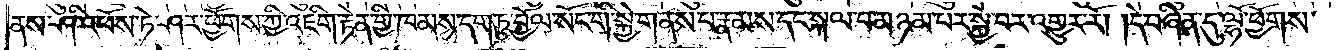ནས་ཤི་འཕོས་ཏེ་ཤར་ཕྱོགས་ཀྱི་འཇིག་རྟེན་གྱི་ཁམས་དག་ཏུ་བྱོལ་སོང་གི་སྐྱེ་གནས་པ་རྣམས་དང་སྐལ་བ་མཉམ་པར་སྐྱེ་བར་འགྱུར་རོ། །དེ་བཞིན་དུ་ལྷོ་ཕྱོགས་
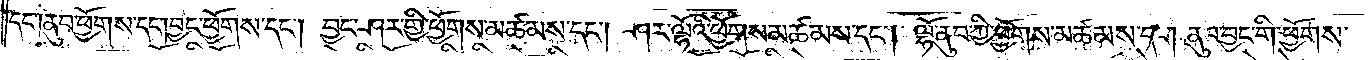དང༌། ནུབ་ཕྱོགས་དང་བྱང་ཕྱོགས་དང༌། བྱང་ཤར་གྱི་ཕྱོགས་མཚམས་དང༌། ཤར་ལྷོའི་ཕྱོགས་མཚམས་དང༌། ལྷོ་ནུབ་ཀྱི་ཕྱོགས་མཚམས་དང༌། ནུབ་བྱང་གི་ཕྱོགས་
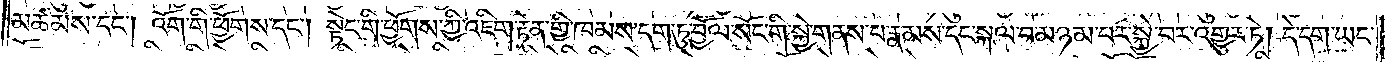མཚམས་དང༌། འོག་གི་ཕྱོགས་དང༌། སྟེང་གི་ཕྱོགས་ཀྱི་འཇིག་རྟེན་གྱི་ཁམས་དག་ཏུ་བྱོལ་སོང་གི་སྐྱེ་གནས་པ་རྣམས་དང་སྐལ་བ་མཉམ་པར་སྐྱེ་བར་འགྱུར་ཏེ། དེ་དག་ཡང་
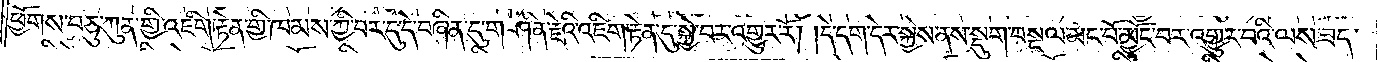ཕྱོགས་བཅུ་ཀུན་གྱི་འཇིག་རྟེན་གྱི་ཁམས་ཀྱི་བར་དུ་དེ་བཞིན་དུ་གཤིན་རྗེའི་འཇིག་རྟེན་དུ་སྐྱེ་བར་འགྱུར་རོ། །དེ་དག་དེར་སྐྱེས་ནས་སྡུག་བསྔལ་མང་པོ་མྱོང་བར་འགྱུར་བའི་ལས་ཟད་
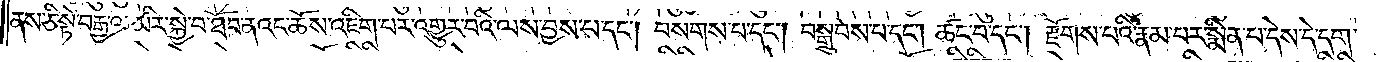ནས་ཅི་སྟེ་བརྒྱ་ལ་མིར་སྐྱེ་བ་ཐོབ་ནའང་ཆོས་འཇིག་པར་འགྱུར་བའི་ལས་བྱས་པ་དང༌། བསགས་པ་དང༌། བསྒྲུབས་པ་དང༌། ཚང་བ་དང༌། རྫོགས་པའི་རྣམ་པར་སྨིན་པ་དེས་དེ་དག་
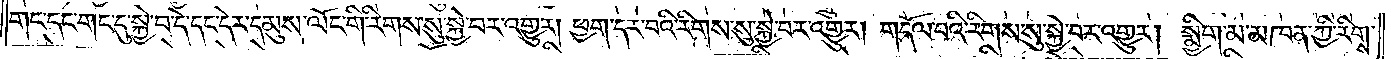གང་དང་གང་དུ་སྐྱེ་བ་དེ་དང་དེར་དམུས་ལོང་གི་རིགས་སུ་སྐྱེ་བར་འགྱུར། ཕྱག་དར་བའི་རིགས་སུ་སྐྱེ་བར་འགྱུར། གདོལ་བའི་རིགས་སུ་སྐྱེ་བར་འགྱུར། སྨྱིག་མ་མཁན་ཀྱི་རིགས་
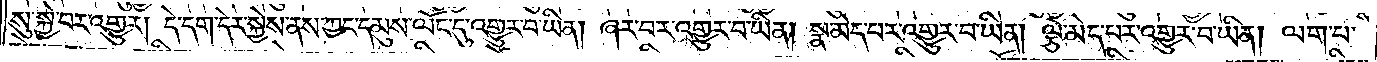སུ་སྐྱེ་བར་འགྱུར། དེ་དག་དེར་སྐྱེས་ནས་ཀྱང་དམུས་ལོང་དུ་འགྱུར་བ་ཡིན། ཞར་བར་འགྱུར་བ་ཡིན། སྣ་མེད་པར་འགྱུར་བ་ཡིན། ལྕེ་མེད་པར་འགྱུར་བ་ཡིན། ལག་པ་
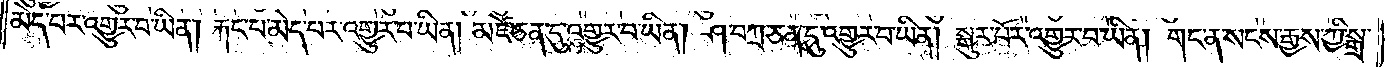མེད་པར་འགྱུར་བ་ཡིན། རྐང་པ་མེད་པར་འགྱུར་པ་ཡིན། མཛེ་ཅན་དུ་འགྱུར་བ་ཡིན། ཤ་བཀྲ་ཅན་དུ་འགྱུར་བ་ཡིན། སྒུར་པོར་འགྱུར་བ་ཡིན། གང་ན་སངས་རྒྱས་ཀྱི་སྒྲ་
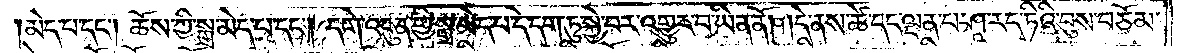མེད་པ་དང༌། ཆོས་ཀྱི་སྒྲ་མེད་པ་དང༌། དགེ་འདུན་གྱི་སྒྲ་མེད་པ་དེ་དག་ཏུ་སྐྱེ་བར་འགྱུར་བ་ཡིན་ནོ། །དེ་ནས་ཚེ་དང་ལྡན་པ་ཤཱ་ར་དྭ་ཏིའི་བུས་བཅོམ་
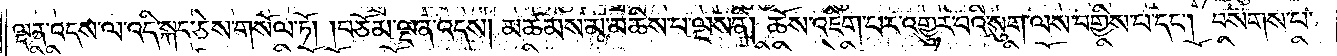ལྡན་འདས་ལ་འདི་སྐད་ཅེས་གསོལ་ཏོ། །བཅོམ་ལྡན་འདས། མཚམས་མ་མཆིས་པ་ལྔས་ནི། ཆོས་འཇིག་པར་འགྱུར་བའི་སུག་ལས་བགྱིས་པ་དང༌། བསགས་པ་
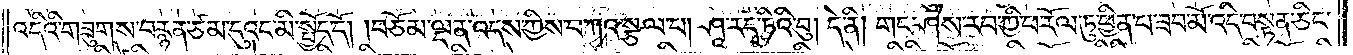འདིའི་གཟུགས་བརྙན་ཙམ་དུའང་མི་སྤྱོད་དོ། །བཅོམ་ལྡན་འདས་ཀྱིས་བཀའ་སྩལ་པ། ཤཱ་ར་དྭ་ཏིའི་བུ། དེ་ནི། གང་ཤེས་རབ་ཀྱི་ཕ་རོལ་ཏུ་ཕྱིན་པ་ཟབ་མོ་འདི་བསྟན་ཅིང་
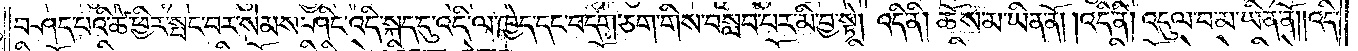བཤད་པའི་ཚེ་ཕྱིར་སྤང་བར་སེམས་ཤིང་འདི་སྐད་དུ་འདི་ལ་ཁྱེད་དང་བདག་ཅག་གིས་བསླབ་པར་མི་བྱ་སྟེ། འདི་ནི། ཆོས་མ་ཡིན་ནོ། །འདི་ནི། འདུལ་བ་མ་ཡིན་ནོ། །འདི་
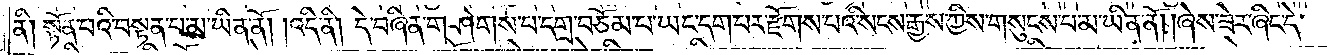ནི། སྟོན་པའི་བསྟན་པ་མ་ཡིན་ནོ། །འདི་ནི། དེ་བཞིན་གཤེགས་པ་དགྲ་བཅོམ་པ་ཡང་དག་པར་རྫོགས་པའི་སངས་རྒྱས་ཀྱིས་གསུངས་པ་མ་ཡིན་ནོ། །ཞེས་ཟེར་ཞིང་དེ་
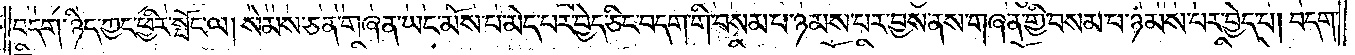བདག་ཉིད་ཀྱང་ཕྱིར་སྤོང་ལ། སེམས་ཅན་གཞན་ཡང་མོས་པ་མེད་པར་བྱེད་ཅིང་བདག་གི་བསམ་པ་ཉམས་པར་བྱས་ནས་གཞན་གྱི་བསམ་པ་ཉམས་པར་བྱེད་པ། བདག་
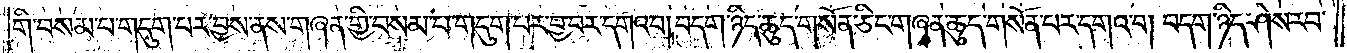གི་བསམ་པ་གདུག་པར་བྱས་ནས་གཞན་གྱི་བསམ་པ་གདུག་པར་བྱ་བར་དགའ་བ། བདག་ཉིད་ཆུད་གསོན་ཅིང་གཞན་ཆུད་གསོན་པར་དགའ་བ། བདག་ཉིད་ཤེས་རབ་
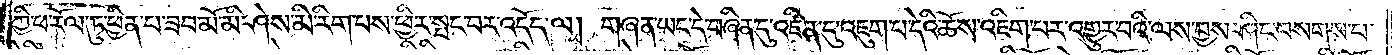ཀྱི་ཕ་རོལ་ཏུ་ཕྱིན་པ་ཟབ་མོ་མི་ཤེས་མི་རིག་པས་ཕྱིར་སྤང་བར་འདོད་ལ། གཞན་ཡང་དེ་བཞིན་དུ་འཛིན་དུ་འཇུག་པ་དེའི་ཆོས་འཇིག་པར་འགྱུར་བའི་ལས་བྱས་ཤིང་བསགས་པ་
